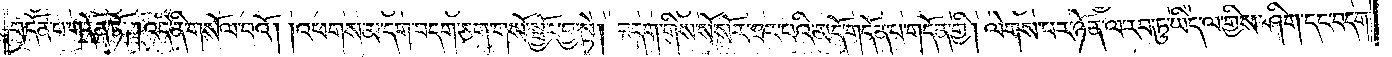གདོན་པ་གདོན་ཏོ། །འདི་ནི་གསོལ་བའོ། །འཕགས་མ་དག་བདག་ཅག་གསོ་སྦྱོང་བྱ་སྟེ། བདག་གིས་སོ་སོར་ཐར་པའི་མདོ་གདོན་པ་གདོན་གྱི། ལེགས་པར་ཉོན་ལ་རབ་ཏུ་ཡིད་ལ་གྱིས་ཤིག་དང་བདག་
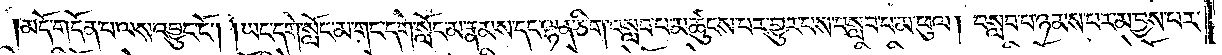།མདོ་གདོན་པ་ལས་འབྱུང་ངོ༌། །ཡང་དགེ་སློང་མ་གང་དགེ་སློང་མ་རྣམས་དང་ལྷན་ཅིག་བསླབ་པ་མཚུངས་པར་གྱུར་པས་བསླབ་པ་མ་ཕུལ། བསླབ་པ་ཉམས་པར་མ་བྱས་པར་
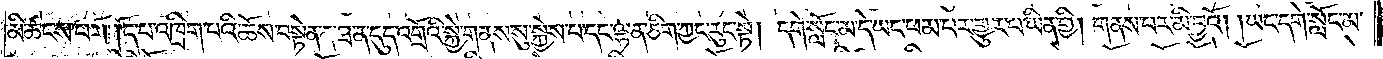མི་ཚངས་པར་སྤྱོད་པ་འཁྲིག་པའི་ཆོས་བསྟེན་ན་ཐ་ན་དུད་འགྲོའི་སྐྱེ་གནས་སུ་སྐྱེས་པ་དང་ལྷན་ཅིག་ཀྱང་རུང་སྟེ། དགེ་སློང་མ་དེ་ཡང་ཕམ་པར་གྱུར་པ་ཡིན་གྱི། གནས་པར་མི་བྱའོ། །ཡང་དགེ་སློང་མ་
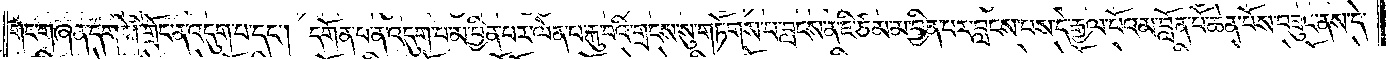གང་གཞན་དག་གི་གྲོང་ན་འདུག་པ་དང༌། དགོན་པ་ན་འདུག་པ་མ་བྱིན་པར་ལེན་པ་རྐུ་བའི་གྲངས་སུ་གཏོགས་པ་བླངས་ན་ཇི་ཙམ་མ་བྱིན་པར་བླངས་པས་དེ་རྒྱལ་པོའམ་བློན་པོ་ཆེན་པོས་བཟུང་ནས་དེ་
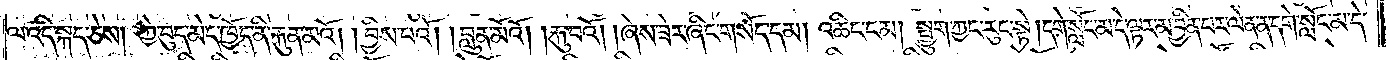ལ་འདི་སྐད་ཅེས། ཀྱེ་བུད་མེད་ཁྱོད་ནི་རྐུན་མའོ། །བྱིས་པའོ། །བླུན་མོའོ། །རྐུ་བའོ། །ཞེས་ཟེར་ཞིང་གསོད་དམ། འཆིང་ངམ། སྤྱུག་ཀྱང་རུང་སྟེ། དགེ་སློང་མ་དེ་ལྟར་མ་བྱིན་པར་ལེན་ན་དགེ་སློང་མ་དེ་
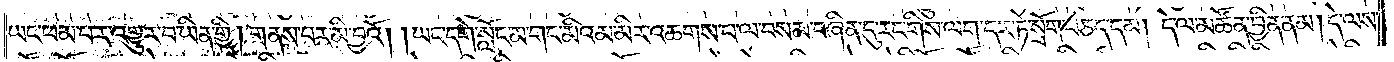ཡང་ཕམ་པར་འགྱུར་བ་ཡིན་གྱི། གནས་པར་མི་བྱའོ། །ཡང་དགེ་སློང་མ་གང་མིའམ་མིར་འཆགས་པ་ལ་བསམ་བཞིན་དུ་རང་གིས་ལག་དར་ཏེ་སྲོག་བཅད་དམ། དེ་ལ་མཚོན་བྱིན་ནམ། དེ་ལས་
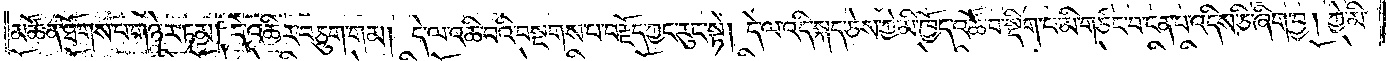མཚོན་ཐོགས་པ་གཉེར་ཏམ། དེ་འཆིར་བཅུག་གམ། དེ་ལ་འཆི་བའི་བསྔགས་པ་བརྗོད་ཀྱང་རུང་སྟེ། དེ་ལ་འདི་སྐད་ཅེས་ཀྱེ་མི་ཁྱོད་འཚོ་བ་སྡིག་པ་མི་གཙང་བ་ངན་པ་འདིས་ཅི་ཞིག་བྱ། ཀྱེ་མི་
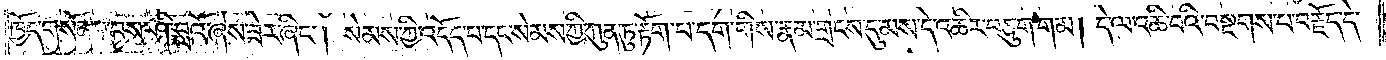ཁྱོད་གསོན་པ་བས་ཤི་བླའོ་ཞེས་ཟེར་ཞིང༌། སེམས་ཀྱི་འདོད་པ་དང་སེམས་ཀྱི་ཀུན་ཏུ་རྟོག་པ་དག་གིས་རྣམ་གྲངས་དུ་མས་དེ་འཆིར་བཅུག་གམ། དེ་ལ་འཆི་བའི་བསྔགས་པ་བརྗོད་དེ་
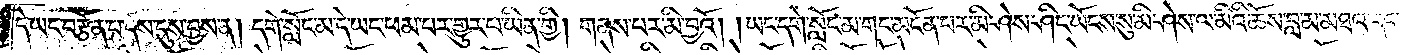དེ་ཡང་བརྩམ་པ་དེས་དུས་བྱས་ན། དགེ་སློང་མ་དེ་ཡང་ཕམ་པར་གྱུར་པ་ཡིན་གྱི། གནས་པར་མི་བྱའོ། །ཡང་དགེ་སློང་མ་གང་མངོན་པར་མི་ཤེས་ཤིང་ཡོངས་སུ་མི་ཤེས་ལ་མིའི་ཆོས་བླ་མ་མཐའ་དང་
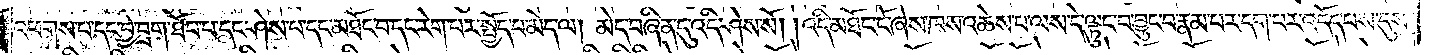འཕགས་པ་དང་བྱེ་བྲག་ཐོབ་པ་དང་ཤེས་པ་དང་མཐོང་བ་དང་རེག་པར་སྤྱོད་པ་མེད་ལ། མེད་བཞིན་དུ་འདི་ཤེས་སོ། །འདི་མཐོང་ངོ་ཞེས་ཁས་འཆེས་པ་ལས་དེ་ལྟུང་བ་བྱུང་བ་རྣམ་པར་དག་པར་འདོད་པས་དུས་
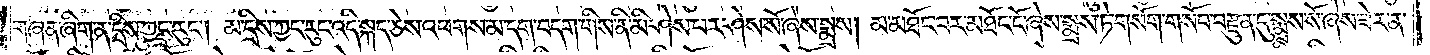གཞན་ཞིག་ན་དྲིས་ཀྱང་རུང༌། མ་དྲིས་ཀྱང་རུང་འདི་སྐད་ཅེས་འཕགས་མ་དག་བདག་གིས་ནི་མི་ཤེས་པར་ཤེས་སོ་ཞེས་སྨྲས། མ་མཐོང་བར་མཐོང་ངོ་ཞེས་སྨྲས་ཏེ་གསོག་གསོབ་བརྫུན་དུ་སྨྲས་སོ་ཞེས་ཟེར་ན་
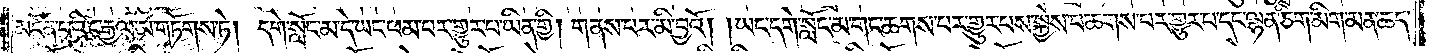མངོན་པའི་ང་རྒྱལ་མ་གཏོགས་ཏེ། དགེ་སློང་མ་དེ་ཡང་ཕམ་པར་གྱུར་པ་ཡིན་གྱི། གནས་པར་མི་བྱའོ། །ཡང་དགེ་སློང་མ་གང་ཆགས་པར་གྱུར་པས་སྐྱེས་པ་ཆགས་པར་གྱུར་པ་དང་ལྷན་ཅིག་མིག་མན་ཆད་
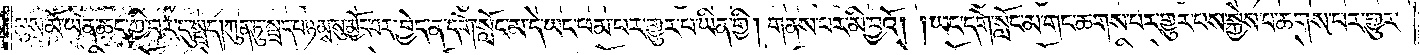པུས་མོ་ཡན་ཆད་ཀྱི་བར་དུ་སྤྲད། ཀུན་ཏུ་སྤྲད་པ་ཉམས་སུ་མྱོང་བར་བྱེད་ན་དགེ་སློང་མ་དེ་ཡང་ཕམ་པར་གྱུར་པ་ཡིན་གྱི། གནས་པར་མི་བྱའོ། །ཡང་དགེ་སློང་མ་གང་ཆགས་པར་གྱུར་པས་སྐྱེས་པ་ཆགས་པར་གྱུར་
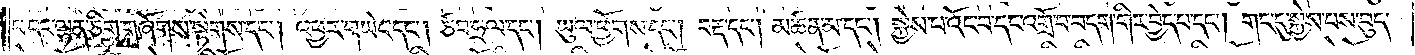བ་དང་ལྷན་ཅིག་གཞོགས་སྟེགས་དང༌། འཕྱར་གཡེང་དང༌། ཙབ་ཧྲལ་དང༌། ཡུལ་ཕྱོགས་དང༌། བརྡ་དང༌། མཚན་མ་དང༌། སྐྱེས་པ་འོང་བ་དང་འགྲོ་བ་བདག་གིར་བྱེད་པ་དང༌། གང་དུ་སྐྱེས་པས་བུད་
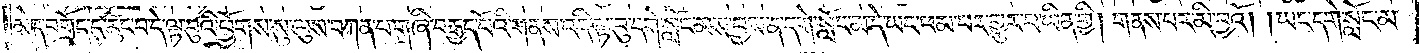མེད་བགྲོད་དུ་རུང་བ་དེ་ལྟ་བུའི་ཕྱོགས་སུ་ལུས་བཀན་པ་གཞི་བརྒྱད་པོའི་གནས་འདི་ལྟ་བུ་དགེ་སློང་མས་བྱས་ན་དགེ་སློང་མ་དེ་ཡང་ཕམ་པར་གྱུར་པ་ཡིན་གྱི། གནས་པར་མི་བྱའོ། །ཡང་དགེ་སློང་མ་
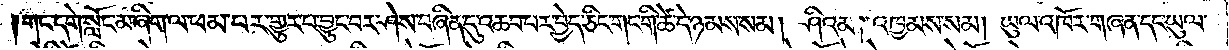གང་དགེ་སློང་མ་ཞིག་ལ་ཕམ་པར་གྱུར་པ་བྱུང་བར་ཤེས་བཞིན་དུ་འཆབ་པར་བྱེད་ཅིང་གང་གི་ཚེ་དེ་ཉམས་སམ། ཤིའམ། འཁྱམས་སམ། ཡུལ་འཁོར་གཞན་དང་ཡུལ་
